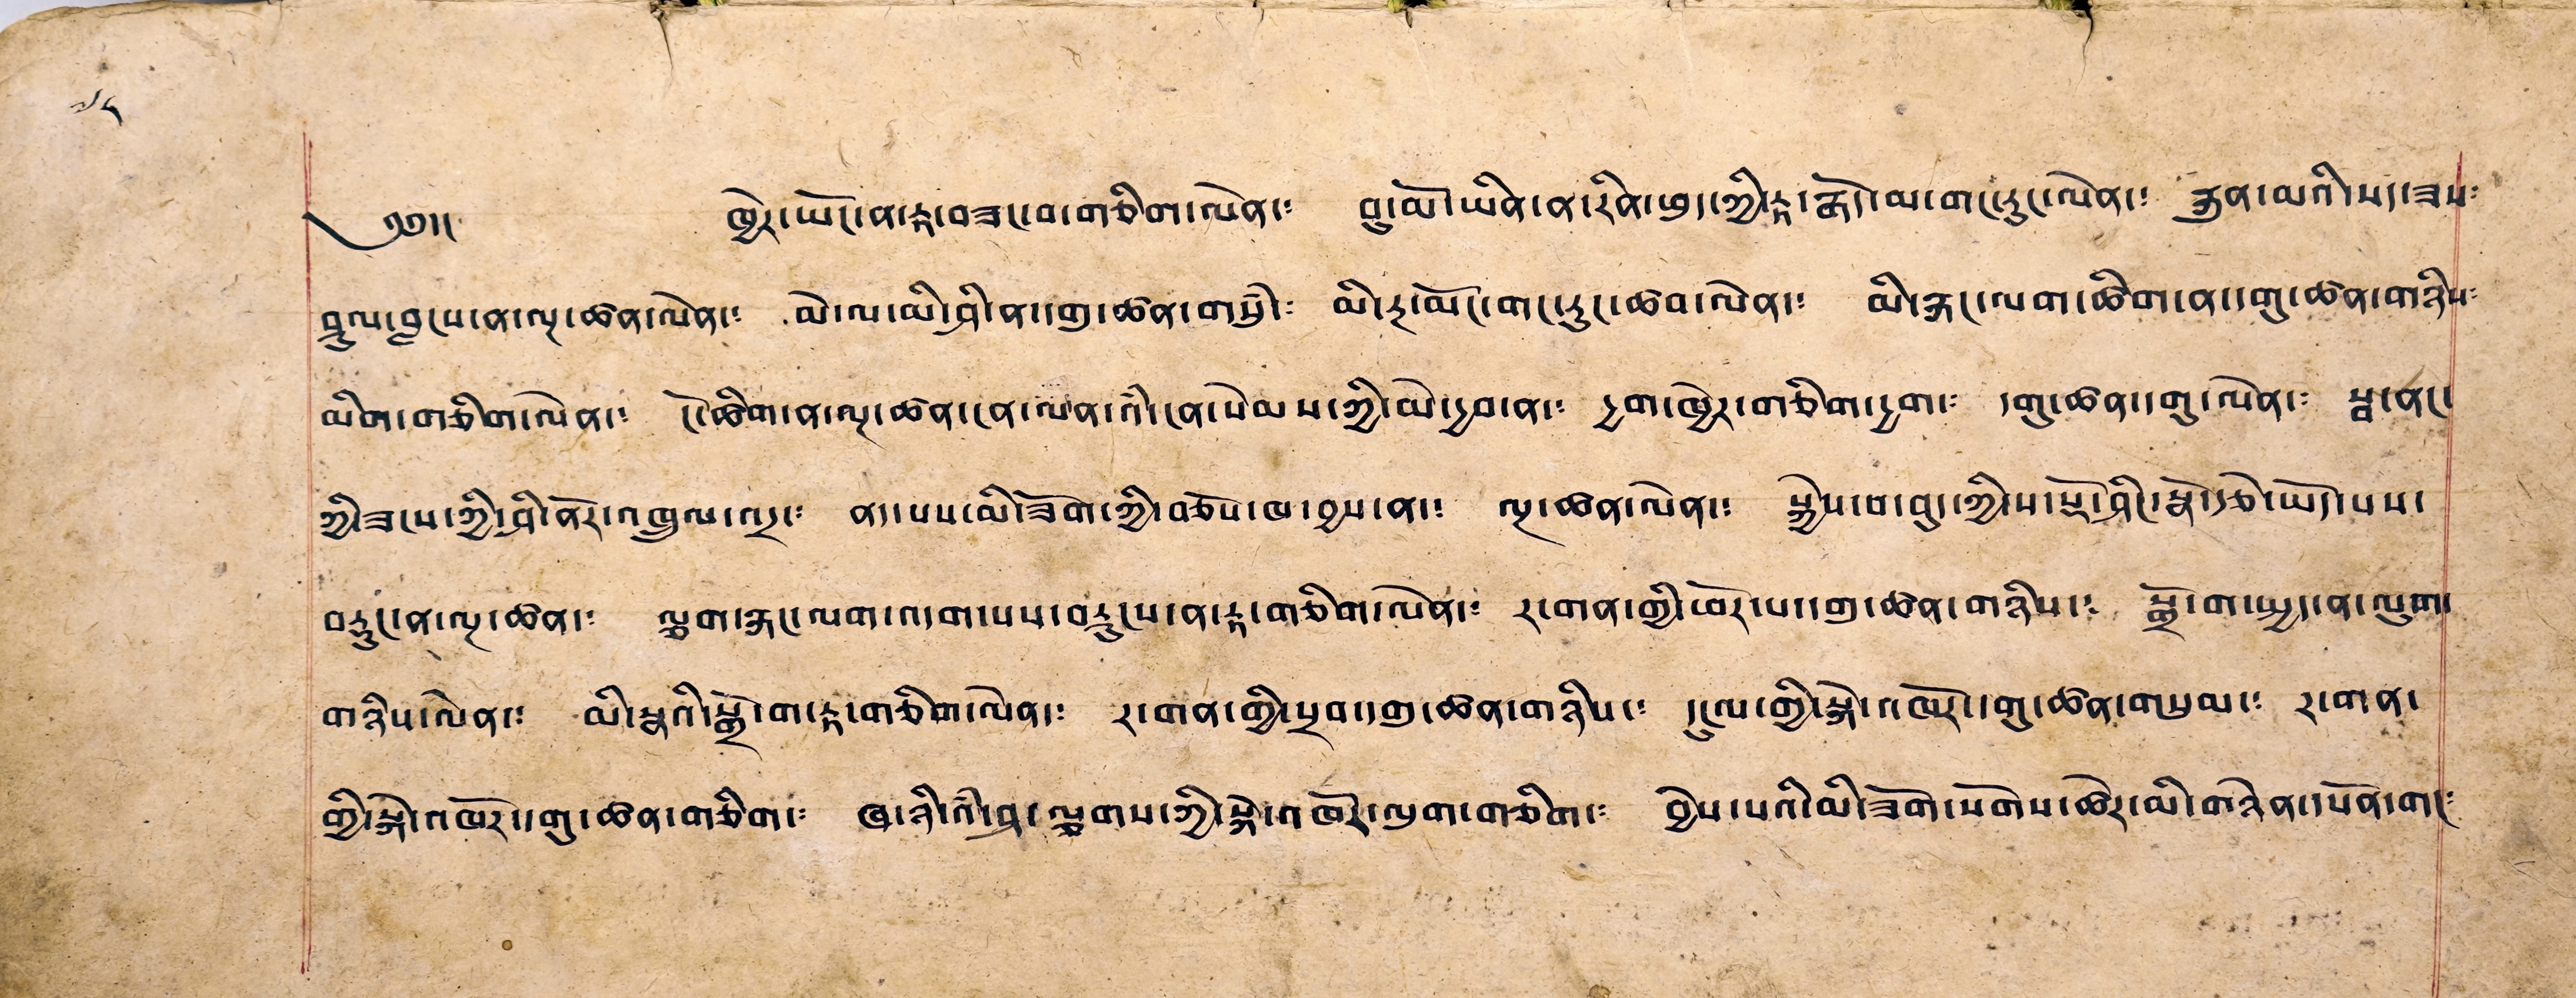༄༅།།  ཁྱེར་ཡོད་ན་རྟ་བཟང་བ་གཅིག་ལེན་༴ བུ་མོ་ཡིན་ན་རིན་ཕུད་ཀྱི་རྟ་རྒོད་མ་གང་རུང་ལེན་༴ རྐུན་མའི་སད་ཟས༴
ཤུལ་བླངས་ན་ལྔ་ཚན་ལེན་༴ མེ་ལ་མི་ཤི་ན་དགུ་ཚན་གསུཾ་༴ མི་རྔ་མོང་གང་རུང་ཚབ་ལེན་༴ མི་རྐང་ལག་ཚིག་ན་དགུ་ཚན་གཉིས༴
མིག་གཅིག་ལེན་༴ ངོ་ཚིག་ན་ལྔ་ཚན་ངན་ལེན་འཾ་ངན་སེམས་ཀྱི་མེ་དྱབ་ན་༴ དྱག་ཁྱེར་གཅིག་དྱག་༴ དགུ་ཚན་དགུ་ལེན་༴ སྦ་ནང་
ཀྱི་ཟངས་ཀྱི་ཤི་ནོར་འཁྲུལ་འདྲ་༴ ནད་པས་མི་ཟོག་ཀྱི་བཅོས་ཁ་བྱས་ན་༴ ལྔ་ཚན་ལེན་༴ སྐྱེས་བ་བུད་ཀྱིས་རྡོ་ཤིང་སྣོ་རྩེ་ཡོད་པས་
བརྡུང་ན་ལྔ་ཚན་༴ ལྕག་རྐང་ལག་འདག་པས་བརྡུངས་ན་རྟ་གཅིག་ལེན་༴ ར་གན་གྱི་ཕོར་པ་དགུ་ཚན་གཉིས་༴ སྒྲོ་ག་སྤྱད་ན་ལུག་
གཉིས་ལེན་༴ མི་སྣའི་སྒྲོ་ག་རྟ་གཅིག་ལེན་༴ ར་གན་གྱི་སྲབ་དགུ་ཚན་གཉིས་༴ དངུལ་གྱི་སྐེ་འཁོར་དགུ་ཚེན་གསུམ་༴ ར་གན་
ཀྱི་སྐེ་འཁོར་དགུ་ཚན་གཅིག་༴ ཞ་ཉི་འཾ་ཤ་ལྕགས་ཀྱི་སྐེ་འཁོར་ལུག་གཅིག་༴ བྱེས་པའི་མི་ཟོག་སོགས་ཚེར་མི་གཉེན་དཔོན་གང་༴
